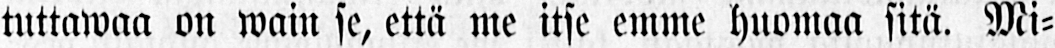tuttawaa on wain se, että me itse emme huomaa sitä. Mi-
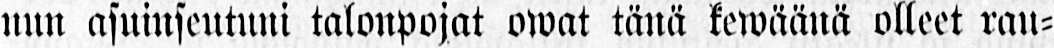nun asuinseutuni talonpojat owat tänä kewäänä olleet rau-
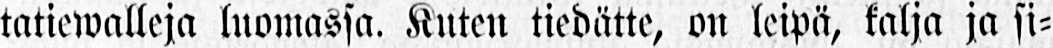tatiewalleja luomassa. Kuten tiedätte, on leipä, kalja ja si-
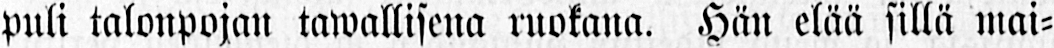puli talonpojan tuwallisena ruokana. Hän elää sillä mai-
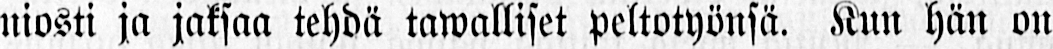niosti ja jaksaa tehdä tawalliset peltotyönsä. Kun hän on
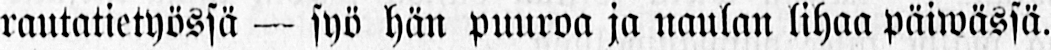rautatietyössä - syö hän puuroa ja naulan lihaa päiwässä.
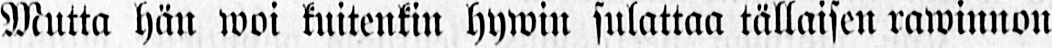Mutta hän woi kuitenkin hywin sulattaa tällaisen rawinnon
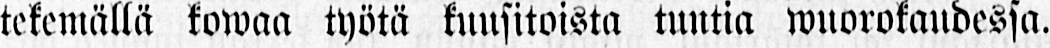tekemällä kowaa työtä kuusitoista tuntia wuorokaudessa.
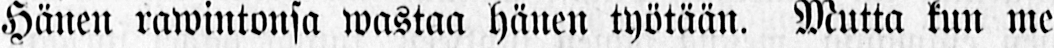Hänen rawintonsa wastaa hänen työtään. Mutta kun me
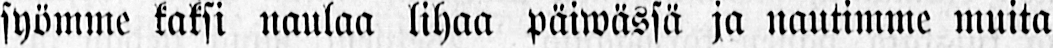syömme kaksi naulaa lihaa päiwässä ja nautimme muita
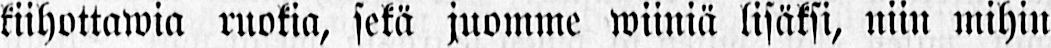kiihottawia ruokia, sekä juomme wiiniä lisäksi, niin mihin
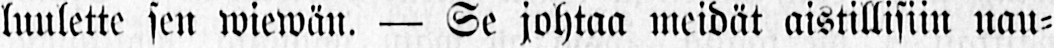luulette sen wiewän. - Se johtaa meidät aistillisiin nau-
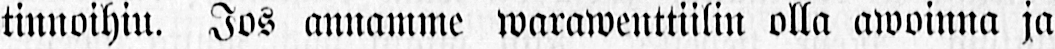tinnoihiu. Jos annamme warawenttiilin olla awoinna ja
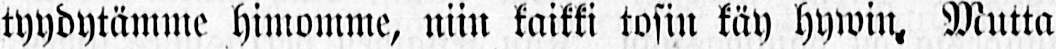tyydytämme himomme, niin kaikki tosin käy hywin. Mutta
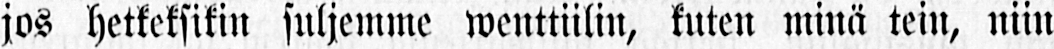jos hetkeksikin suljemme wenttiilin, kuten minä tein, niin
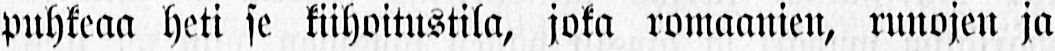puhkeaa heti se kiihoitustila, joka romaanien, runojen ja
